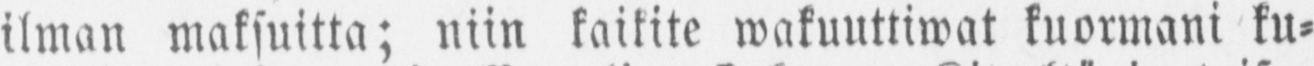ilman maksuitta; niin kaikite wakuuttiwat kuormani ku-
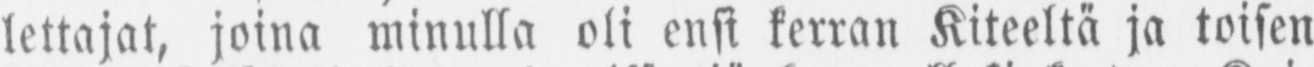lottajat, joina minulla oli ensi kerran Kiteeltä ja toisen
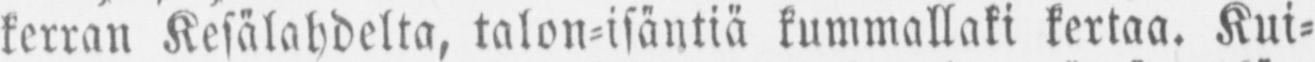kerran Kesälahdelta, talon-isäntiä kummallaki kertaa. Kui-
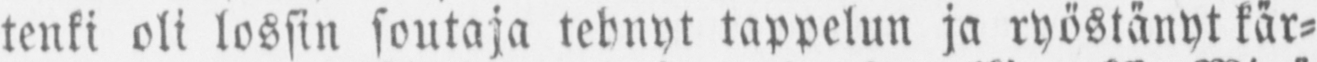tenki oli lossin soutaja tehnyt tappelun ja ryöstänyt kär-
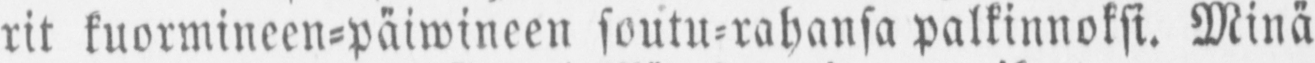rit kuormineen-päiwineen soutu-rahansa palkinnoksi. Minä
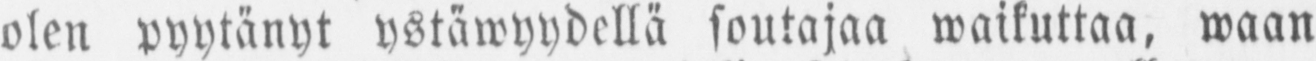olen pyytänyt ystäwyydellä soutajaa waikuttaa, waan
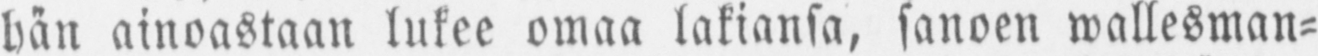hän ainoastaan lukee omaa lakiansa, sanoen wallesman-
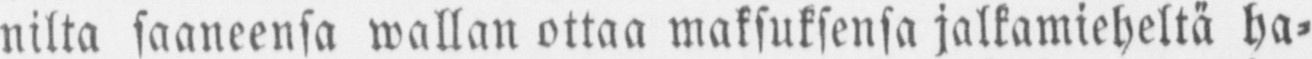nilta saaneensa wallan ottaa maksuksensa jalkamieheltä ha-
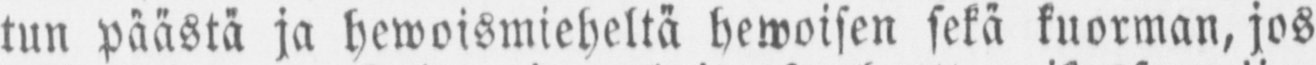tun päästä ja hewoismieheltä hewoisen sekä kuorman, jos
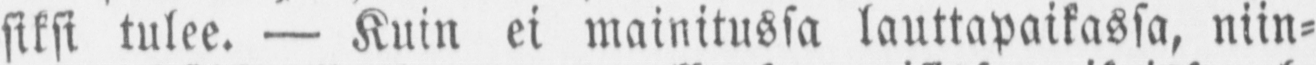siksi tulee. — Kuin ei mainitussa lauttapaikassa, niin-
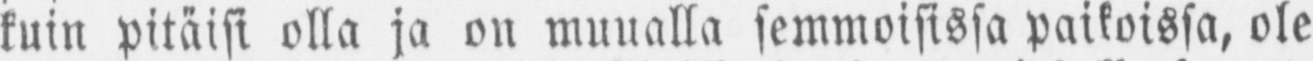kuin pitäisi olla ja on muualla semmoisissa paikoissa, ole
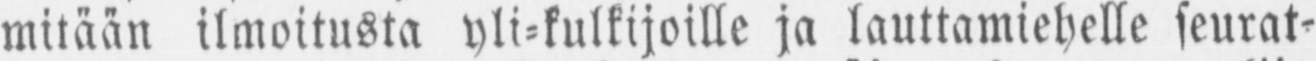mitään ilmoitusta yli-kulkijoille ja lauttamiehelle seurat-
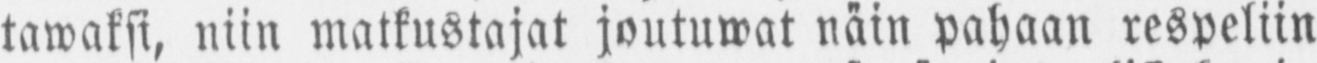tawaksi, niin matkustajat joutuwat näin pahaan respeliin
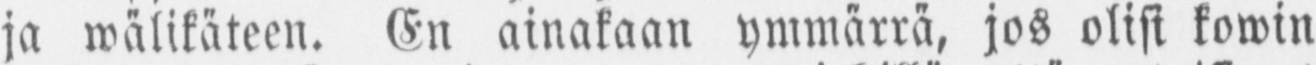ja wälikäteen. En ainakaan ymmärrä, jos olisi kowin
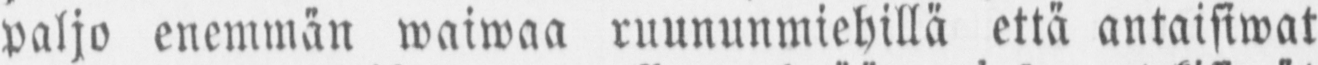paljo enemmän waiwaa ruununmiehillä että antaisiwat
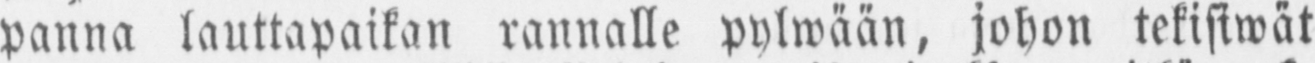panna lauttapaikan rannalle pylwään, johon tekisiwät
